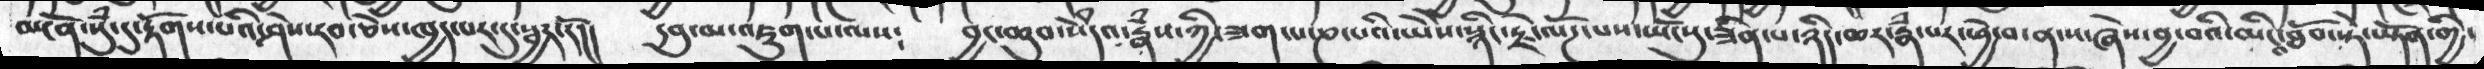མངོན་སུཾ་དུ་རྟོགས་པའི་ཤེས་རབ་ཅེས་ཁྱད་པར་དུ་སྦྱར་རོ།།  དབུ་མ་འཇུག་པ་ལས༴  བྱང་ཆུབ་སེཾདའ་རྣཾས་ཀྱི་ཟག་པ་ཎ་པའི་ཡེེས་སྙིང་རྗེ་ལོཌ་པས་ཡོངསུ་ཟིན་པ་ཉིད་ཆར་རྣཾ་པར་བྱེ་བ་ནས་ས་ཞེས་བྱ་བའི་མིང་ཐོབ་སྟེ་ཡྟོན་གྱི་
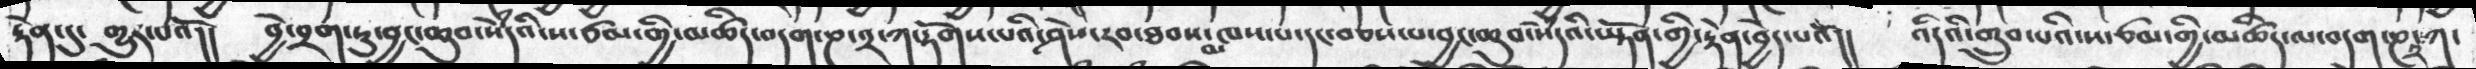རྟེན་དུ་ གྱུར་པའོ།།  བྱེ་བྲག་ཏུ་བྱང་ཆུབ་སེཾདའི་ས་ཙམ་གྱི་མཚིད་བདག་ཎ་༢་ཀ་རྟོགས་པའི་ཤེས་རབ་ཐབས་མཁས་པ་དང་བཅས་པ་བྱང་ཆུབ་སེཾདའི་ཡྟོན་གྱི་རྟེན་བྱེད་པའོ།།  འདིའི་གྲུབ་བའི་ས་ཙམ་གྱི་མཚིད་ལ་བདག་ཎ་༢་ཀ་
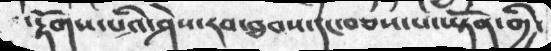་རྟོགས་པའི་ཤེས་རབ་ཐབས་དང་བཅས་པ་ཡྟོན་གྱི་
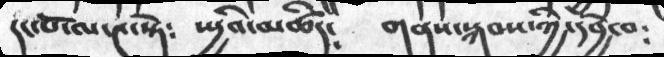དང་པོ་ལ་༤་སྟེ༴   ཡྱིའི་མཚིད༴    གནས་སྐབས་ཀྱི་དབྱེ་བ༴
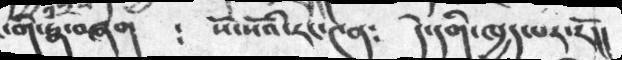གི་རྣཾ་བཞག    ༴    སོ་སེའི་རན་༤ན༴    དེ་དགི་ཁྱད་པར་རོ།།
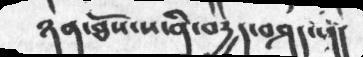ཉན་ཐོས་པ་ནི་བདྱད་བཤད་།།
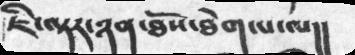ཇི་ལྟར་ཉན་ཐོས་ཐེག་པ་ལ།།
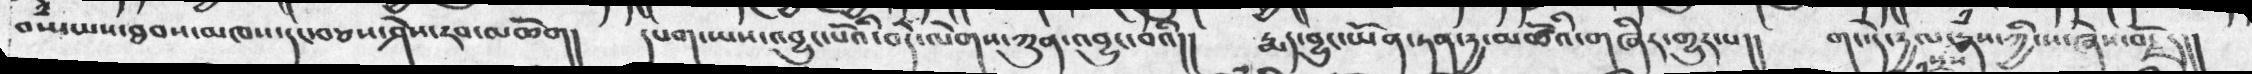བསཾ་ཡས་ཐབས་མཁས་དང་བཅས་ཤེས་རབ་མཆོག།  དཔག་ཡས་འབྱུང་པོའི་བདེ་ལེགས་ཀུན་འབྱུང་བའི།།  རྨད་བྱུང་ཡོན་ཏན་དྱ་མཚོའི་གཞིར་གྱུར་པ།།   གང་དེ་དྱལ་སྲས་རྣཾས་ཀྱི་ས་ཞེས་བརྗོད།།
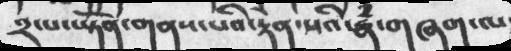༢་པ་ཡྟོན་གནས་པའི་རྟེན་པའི་རྣཾ་གཞག་ལ་
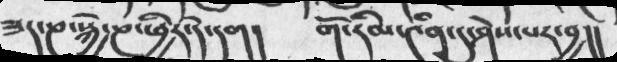ཟད་ཎ་སྐྱེ་ཎ་ཕྱིར་དེ་དག།  གོ་རིམ་༤ན་དུ་ཤེས་པར་བྱ།།
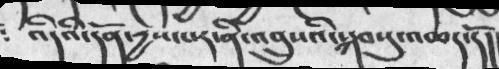འདིའི་དོན་དྱས་པར་ནི་འབྲུསའི་སྐབསུ་འཆད་དོ།།
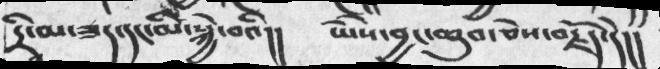དྲི་མ་ཟད་དང་མི་སྐྱེ་བའི།།  ཡེསེ་བྱང་ཆུབ་ཅེས་བརྗོད་དེ།།
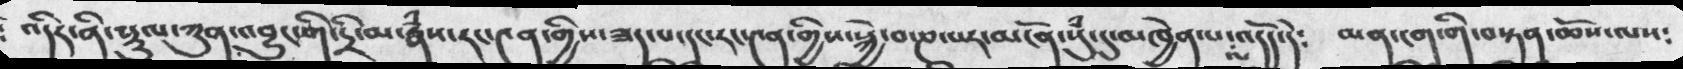འདིར་ནི་སྡུལ་ཀུན་འབྱུང་གི་དྲི་མ་རྣཾས་རང་༤ན་གྱིས་ཟད་པ་དང་རང་༤ན་གྱིས་སྐྱེ་བ་ཎ་པར་མངོན་སུཾ་དུ་མཁྱེན་པ་འདོད་དེ༴  མན་ངག་གི་བསྟན་ཆོས་ལས༴
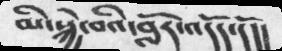མི་སྐྱེ་བའི་བློར་འདོད་དོ།།
